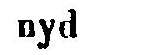nyd
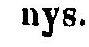nys.
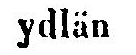ydlän
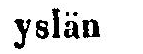yslän
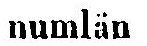numlän
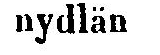nydlän
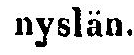nyslän.
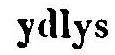ydlys
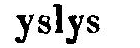yslys
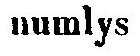numlys
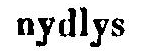nydlys
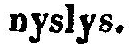nyslys.
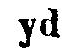yd
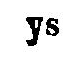ys
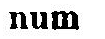num
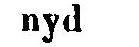nyd
